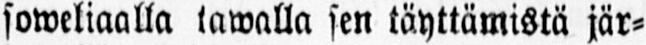soweliaalla tawalla sen täyttämistä jär-
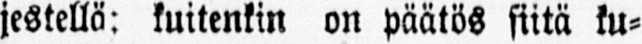jestellä: kuitenkin on päätös siitä ku-
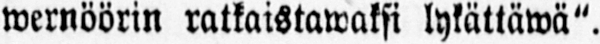wernöörin ratkaistawaksi lykättäwä".
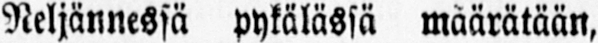Neljännessä pykälässä määrätään,
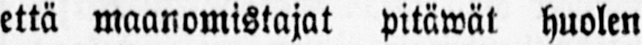että maanomistajat pitäwät huolen
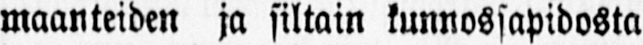maanteiden ja siltain kunnossapidosta
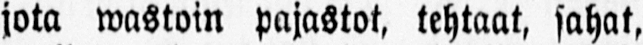jota wastoin pajastot, tehtaat, sahat,
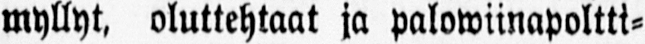myllyt, oluttehtaat ja palowiinapoltti-
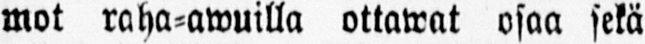mot raha-awuilla ottawat osaa sekä
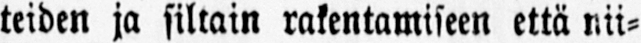teiden ja siltain rakentamiseen että nii-
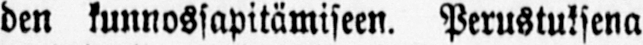den kunnossapitämiseen. Perustuksena
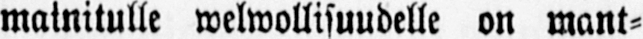mainitulle welwollisuudelle on mant-
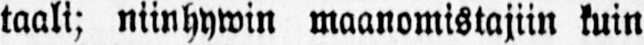taali; niinhywin maanomistajiin kuin
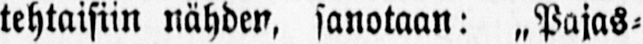tehtaisiin nähden, sanotaan: „Pajas-
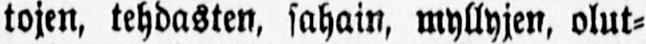tojen, tehdasten, sahain, myllyjen, olut-
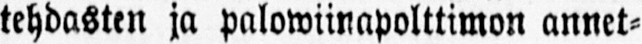tehdasten ja palowiinapolttimon annet-
